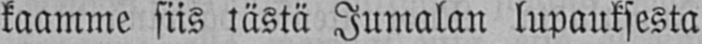kaamme siis tästä Jumalan lupauksesta
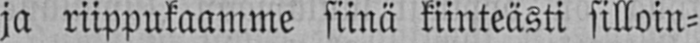ja riippukaamme siinä kiinteästi silloin-
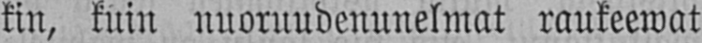kin, kuin nuoruudenunelmat raukeewat
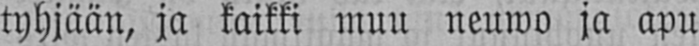tyhjään, ja kaikki muu neuwo ja apu
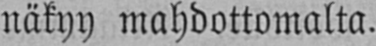näkyy mahdottomalta.
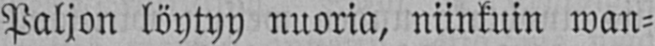Paljon löytyy nuoria, niinkuin wan-
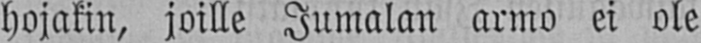hojakin, joille Jumalan armo ei ole
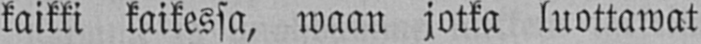kaikki kaikessa, waan jotka luottawat
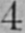4
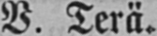V. Terä.
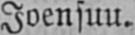Joensuu.
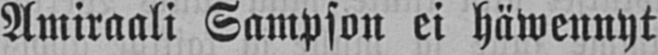Amiraali Sampson ei häwennyt
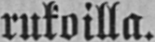rukoilla.
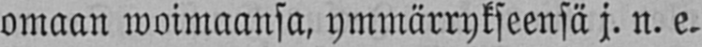omaan woimaansa, ymmärrykseensä j. n. e.
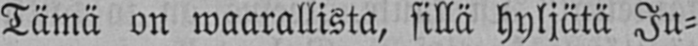Tämä on wäärällistä, sillä hyljätä Ju-
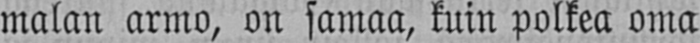malan armo, on samaa, kuin polkea oma
